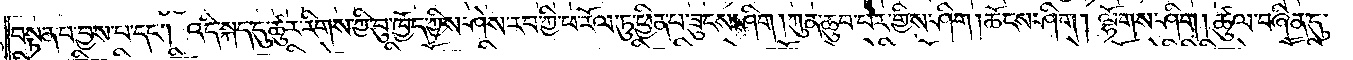བསྟན་པ་བྱས་པ་དང༌། འདི་སྐད་དུ་ཚུར་རིགས་ཀྱི་བུ་ཁྱོད་ཀྱིས་ཤེས་རབ་ཀྱི་ཕ་རོལ་ཏུ་ཕྱིན་པ་ཟུངས་ཤིག །ཀུན་ཆུབ་པར་གྱིས་ཤིག །ཆོངས་ཤིག །ལྷོགས་ཤིག །ཚུལ་བཞིན་དུ་
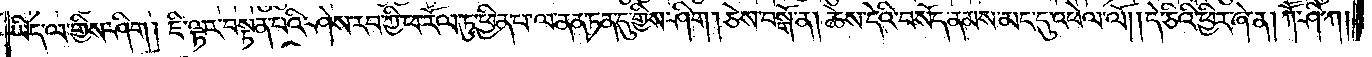ཡིད་ལ་གྱིས་ཤིག །ཇི་ལྟར་བསྟན་པའི་ཤེས་རབ་ཀྱི་ཕ་རོལ་ཏུ་ཕྱིན་པ་ལ་ནན་ཏན་དུ་གྱིས་ཤིག། ཅེས་བསྒོ་ན། ཆེས་དེའི་བསོད་ནམས་མང་དུ་འཕེལ་ལོ། །དེ་ཅིའི་ཕྱིར་ཞེ་ན། ཀཽ་ཤི་ཀ།
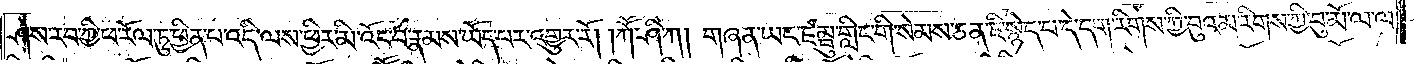ཤེས་རབ་ཀྱི་ཕ་རོལ་ཏུ་ཕྱིན་པ་འདི་ལས་ཕྱིར་མི་འོང་བ་རྣམས་ཡོད་པར་འགྱུར་རོ། །ཀཽ་ཤི་ཀ། གཞན་ཡང་ཛམྦུ་གླིང་གི་སེམས་ཅན་ཇི་སྙེད་པ་དེ་དག་རིགས་ཀྱི་བུའམ་རིགས་ཀྱི་བུ་མོ་ལ་ལ་
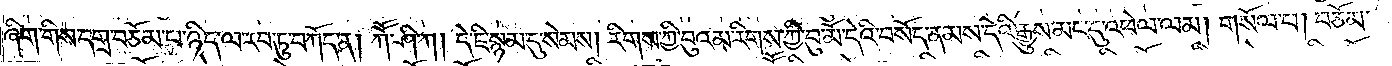ཞིག་གིས་དགྲ་བཅོམ་པ་ཉིད་ལ་རབ་ཏུ་བཀོད་ན། ཀཽ་ཤི་ཀ། དེ་ཇི་སྙམ་དུ་སེམས། རིགས་ཀྱི་བུའམ་རིགས་ཀྱི་བུ་མོ་དེའི་བསོད་ནམས་དེའི་རྒྱུས་མང་དུ་འཕེལ་ལམ། གསོལ་པ། བཅོམ་
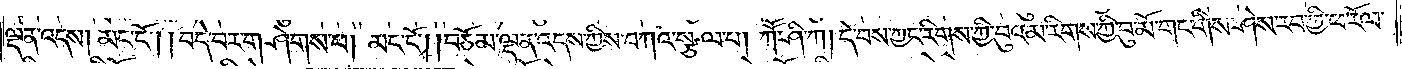ལྡན་འདས། མང་ངོ༌། །བདེ་བར་གཤེགས་པ། མང་ངོ༌། །བཅོམ་ལྡན་འདས་ཀྱིས་བཀའ་སྩལ་པ། ཀཽ་ཤི་ཀ། དེ་བས་ཀྱང་རིགས་ཀྱི་བུའམ་རིགས་ཀྱི་བུ་མོ་གང་གིས་ཤེས་རབ་ཀྱི་ཕ་རོལ་
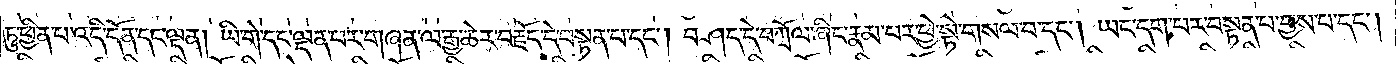ཏུ་ཕྱིན་པ་འདི་དོན་དང་ལྡན། ཡི་གེ་དང་ལྡན་པར་གཞན་ལ་རྒྱ་ཆེར་བརྗོད་དེ་བསྟན་པ་དང༌། བཤད་དེ་བཀྲོལ་ཞིང་རྣམ་པར་ཕྱ་སྟེ་གསལ་བ་དང༌། ཡང་དག་པར་བསྟན་པ་བྱས་པ་དང༌།
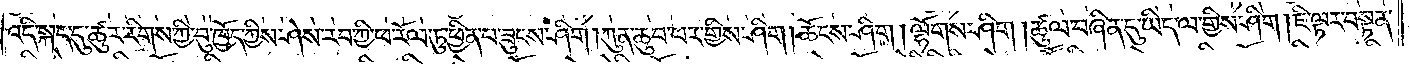འདི་སྐད་དུ་ཚུར་རིགས་ཀྱི་བུ་ཁྱོད་ཀྱིས་ཤེས་རབ་ཀྱི་ཕ་རོལ་ཏུ་ཕྱིན་པ་ཟུངས་ཤིག །ཀུན་ཆུབ་པར་གྱིས་ཤིག། ཆོངས་ཤིག། ལྷོགས་ཤིག །ཚུལ་བཞིན་དུ་ཡིད་ལ་གྱིས་ཤིག །ཇི་ལྟར་བསྟན་
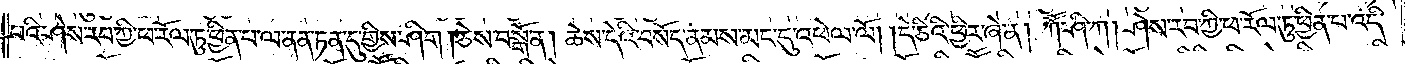པའི་ཤེས་རབ་ཀྱི་ཕ་རོལ་ཏུ་ཕྱིན་པ་ལ་ནན་ཏན་དུ་གྱིས་ཤིག །ཅེས་བསྒོ་ན། ཆེས་དོའི་བསོད་ནམས་མང་དུ་འཕེལ་ལོ། །དེ་ཅིའི་ཕྱིར་ཞེ་ན། ཀཽ་ཤི་ཀ། ཤེས་རབ་ཀྱི་ཕ་རོལ་ཏུ་ཕྱིན་པ་འདི་
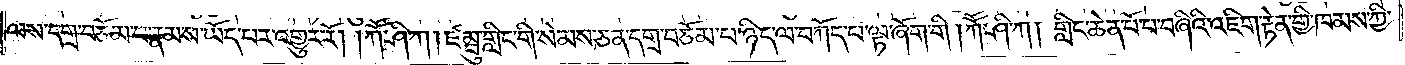ལས་དགྲ་བཅོམ་པ་རྣམས་ཡོད་པར་འགྱུར་རོ། །ཀཽ་ཤི་ཀ། ཛམྦུ་གླིང་གི་སེམས་ཅན་དགྲ་བཅོམ་པ་ཉིད་ལ་བཀོད་པ་ལྟ་ཞོག་གི། ཀཽ་ཤི་ཀ། གླིང་ཆེན་པོ་པ་བཞིའི་འཇིག་རྟེན་གྱི་ཁམས་ཀྱི་
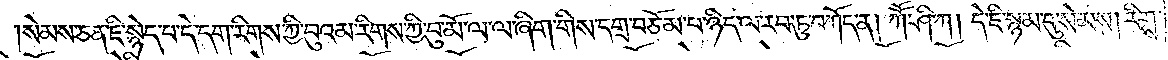སེམས་ཅན་ཇི་སྙེད་པ་དེ་དག་རིགས་ཀྱི་བུའམ་རིགས་ཀྱི་བུ་མོ་ལ་ལ་ཞིག་གིས་དགྲ་བཅོམ་པ་ཉིད་ལ་རབ་ཏུ་བཀོད་ན། ཀཽ་ཤི་ཀ། དེ་ཇི་སྙམ་དུ་སེམས། རིགས་
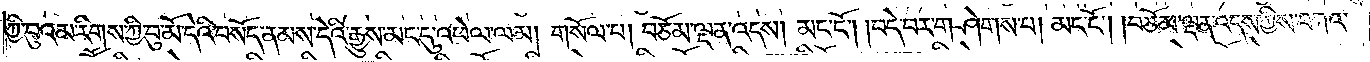ཀྱི་བུའམ་རིགས་ཀྱི་བུ་མོ་དེའི་བསོད་ནམས་དེའི་རྒྱུས་མང་དུ་འཕེལ་ལམ། གསོལ་པ། བཅོམ་ལྡན་འདས། མང་ངོ༌། །བདེ་བར་གཤེགས་པ། མང་ངོ༌། །བཅོམ་ལྡན་འདས་ཀྱིས་བཀའ་
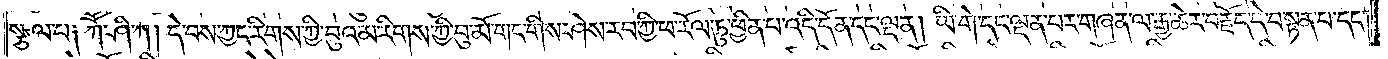སྩལ་པ༑ ཀཽ་ཤི་ཀ། དེ་བས་ཀྱང་རིགས་ཀྱི་བུའམ་རིགས་ཀྱི་བུ་མོ་གང་གིས་ཤེས་རབ་ཀྱི་ཕ་རོལ་ཏུ་ཕྱིན་པ་འདི་དོན་དང་ལྡན། ཡི་གེ་དང་ལྡན་པར་གཞན་ལ་རྒྱ་ཆེར་བརྗོད་དེ་བསྟན་པ་དང༌།
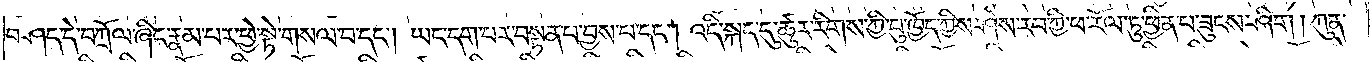བཤད་དེ་བཀྲོལ་ཞིང་རྣམ་པར་ཕྱེ་སྟེ་གསལ་བ་དང༌། ཡང་དག་པར་བསྟན་པ་བྱས་པ་དང༌། འདི་སྐད་དུ་ཚུར་རིགས་ཀྱི་བུ་ཁྱོད་ཀྱིས་ཤེས་རབ་ཀྱི་ཕ་རོལ་ཏུ་ཕྱིན་པ་ཟུངས་ཤིག། ཀུན་
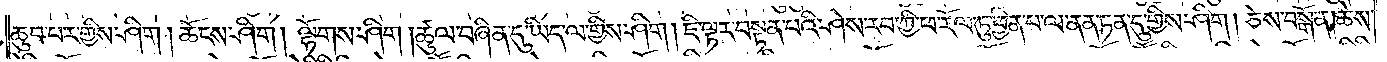ཆུབ་པར་གྱིས་ཤིག། ཆོངས་ཤིག། ལྷོགས་ཤིག། ཚུལ་བཞིན་དུ་ཡིད་ལ་གྱིས་ཤིག། ཇི་ལྟར་བསྟན་པའི་ཤེས་རབ་ཀྱི་ཕ་རོལ་ཏུ་ཕྱིན་པ་ལ་ནན་ཏན་དུ་གྱིས་ཤིག། ཅེས་བསྒོ་ན། ཆེས་
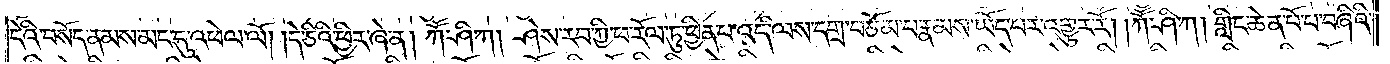དེའི་བསོད་ནམས་མང་དུ་འཕེལ་ལོ། །དེ་ཅིའི་ཕྱིར་ཞེ་ན། ཀཽ་ཤི་ཀ། ཤེས་རབ་ཀྱི་ཕ་རོལ་ཏུ་ཕྱིན་པ་འདི་ལས་དགྲ་བཅོམ་པ་རྣམས་ཡོད་པར་འགྱུར་རོ། །ཀཽ་ཤི་ཀ། གླིང་ཆེན་པོ་པ་བཞིའི་
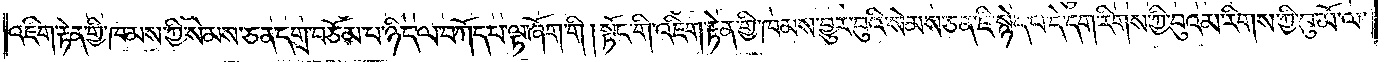འཇིག་རྟེན་གྱི་ཁམས་ཀྱི་སེམས་ཅན་དགྲ་བཅོམ་པ་ཉིད་ལ་བཀོད་པ་ལྟ་ཞོག་གི །སྟོང་གི་འཇིག་རྟེན་གྱི་ཁམས་བྱུར་བུའི་སེམས་ཅན་ཇི་སྙེད་པ་དེ་དག་རིགས་ཀྱི་བུའམ་རིགས་ཀྱི་བུ་མོ་ལ་
